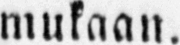mukaan.
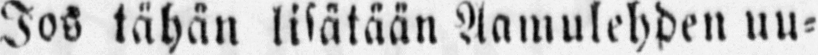Jos tähän lisätään Aamulehden uu-
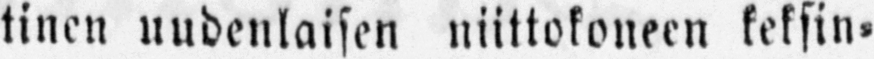tinen uudenlaisen niittokoneen keksin-
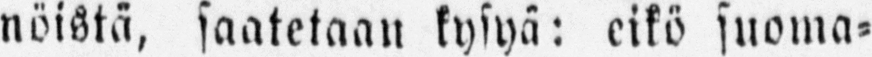nöistä, saatetaan kysyä: eikö suoma-
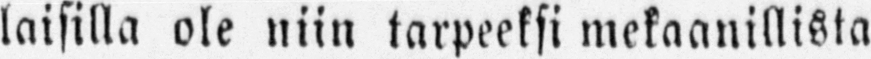laisilla ole niin tarpeeksi mekaanillista
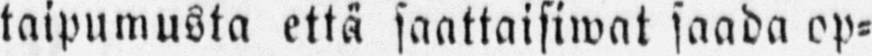taipumusta että saattaisiwat saada op-
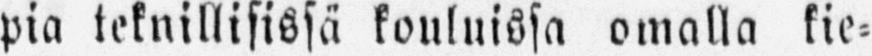pia teknillisissä kouluissa omalla kie-
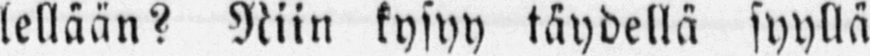lellään? Niin kysyy täydellä syyllä
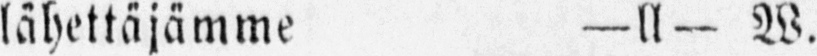lähettäjämme —ll— W.
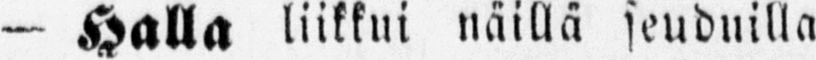— Halla liikkui näillä seuduilla
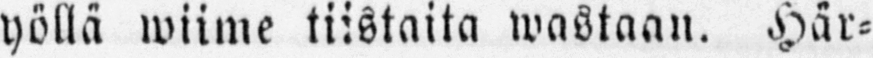yöllä wiime tiistaita wastaan. Här-
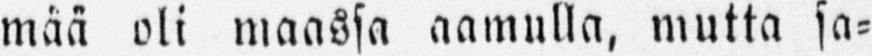mää oli maassa aamulla, mutta sa-
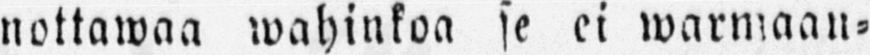nottawaa wahinkoa se ei warmaan-
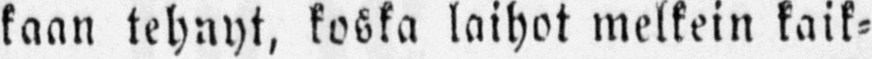kaan tehnyt, koska laihot melkein kaik-
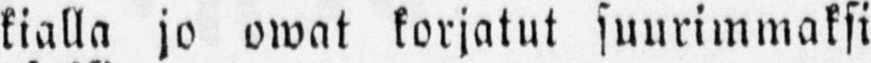kialla jo owat korjatut suurimmaksi
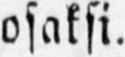osaksi.
